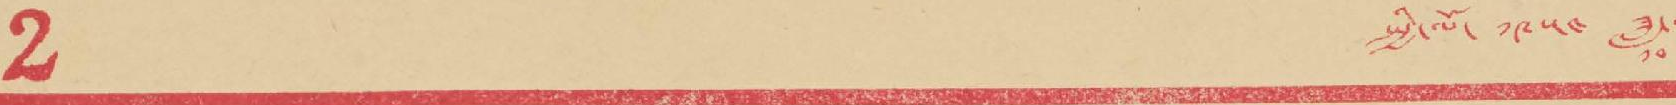2 སྤྱི་ལོ་ ༡༩༥༤ ཟླ་
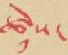ཚེས་
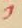༡
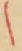།
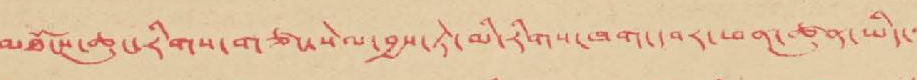མཐོངས་ཆུང་རིགས་གཙང་སེལ་བྱས་ཏེ་མི་རིགས་ཁག་དབར་ཕན་ཚུན་ཡིད་
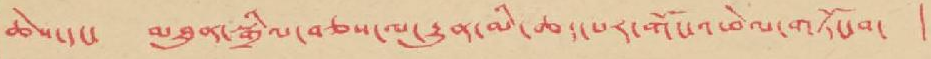ཆེས་དང་ མཐུན་སྒྲིལ་བཅས་ལ་རྒྱུན་མི་ཆད་པར་གོང་འཕེལ་གཏོང་བ་
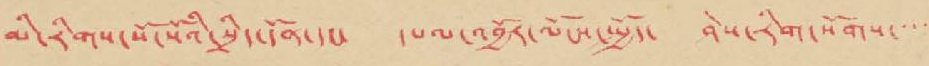མི་རིགས་སོ་སོའི་སྲིད་དོན་དང་ དཔལ་འབྱོར་ལོངས་སྤྱོད་ ཤེས་རིགས་སོགས་་་་
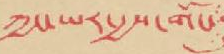ཀྱང་ཡར་རྒྱས་གོང་
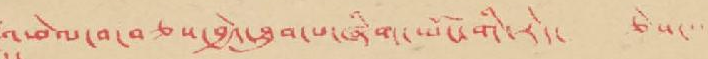འཕེལ་བ་བཅས་བྱེད་ཐུབ་པ་ཞིག་ཡོང་གི་རེད་ ཅེས་
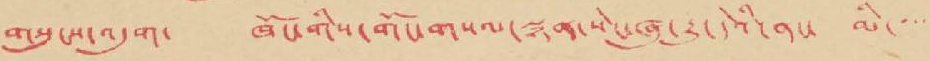གསུངས་འདུག་ ཁོང་གིས་གོང་གསལ་སྙན་སེང་ཞུ་རྒྱུ་དེའི་ནང་ མི་་་་
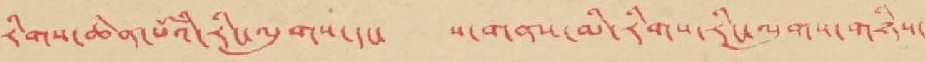རིགས་ཆེན་པོའི་རིང་ལུགས་དང་ ས་གནས་མི་རིགས་རིང་ལུགས་གཉིས་
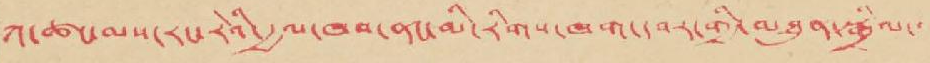ཀ་ཚང་མས་རང་རེའི་རྒྱལ་ཁབ་ནང་མི་རིགས་ཁག་དབར་གྱི་མཐུན་སྒྲིལ་
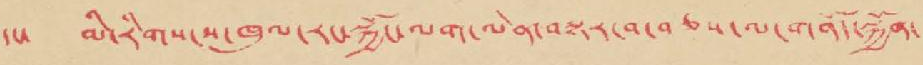དང་ མི་རིགས་ས་ཁུལ་རང་སྐྱོང་ལག་ལེན་བསྟར་བ་བཅས་ལ་གནོད་སྐྱོན་
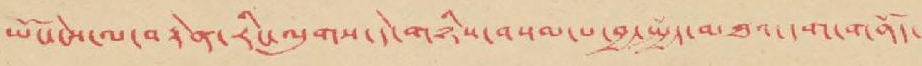ཡོང་ངེས་ལ་བརྟེན་རིང་ལུགས་དེ་གཉིས་བསམ་པ་བྱ་སྤྱོད་མཐའ་དག་གནོད་
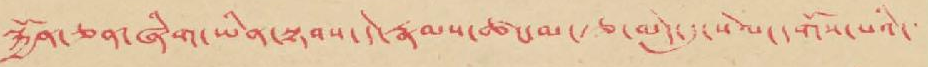སྐྱོན་ཅན་ཞིག་ཡིན་སྟབས་དེ་རྣམས་ཚང་མ་རྩ་མེད་དུ་སེལ་དགོས་པའི་
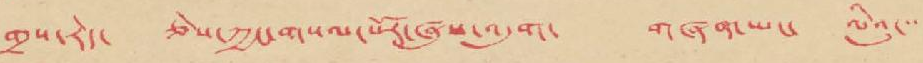གྲས་རེད་ ཅེས་ཀྱང་གསལ་པོར་ཞུས་འདུག་ གཞན་ཡང་ ལིའུ་་་
